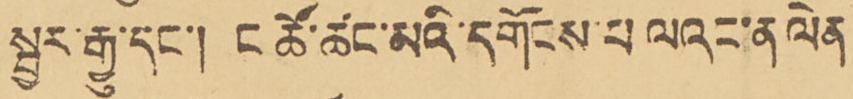སྦྱར་རྒྱུ་དང་། ང ཚོ་ཚང་མའི་དགོངས་པ ལའང་ན ལེན
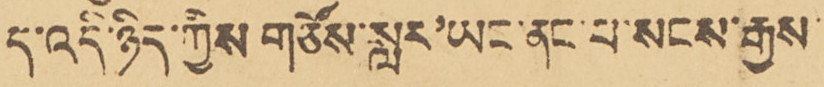ད་འདི་ཉིད་ཀྱིས གཙོས་སླར་ཡང་ནང་པ་སངས་རྒྱས
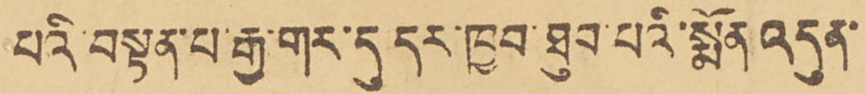པའི་བསྟན་པ་རྒྱ་གར་དུ དར་ཁྱབ་ཐུབ་པའི་སྨོན འདུན་
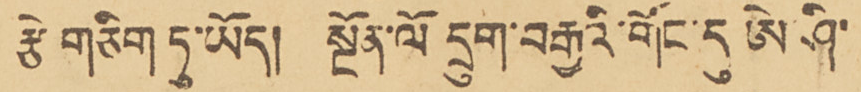རྩེ གཅིག ཏུ་ཡོད། སྔོན་ལོ དྲུག་བརྒྱའི་གོང་དུ ཨེ་ཤི་
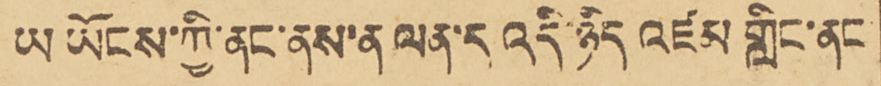ཡ ཡོངས་ཀྱི་ནང་ནས་ན ལན་དུའདི་ཉིད འཛམ གླིང་ནང
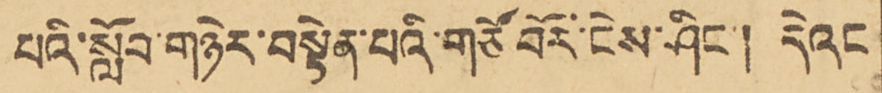པའི་སློབ་གཉེར་བསྟེན་པའི་གཙོ བོར་ངེས་ཤིང་། དེའང
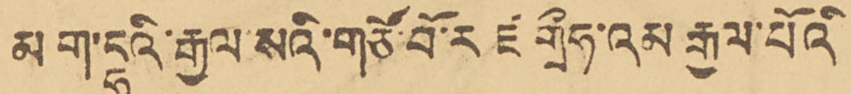མག་དྷའི་རྒྱལ་སའི་གཙོ་བོ་ར ཛ གྲིཧ་འམ རྒྱལ་པོའི
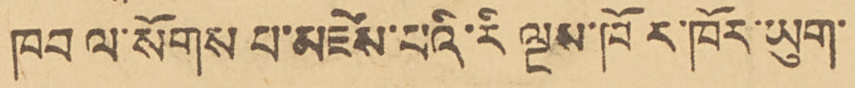ཁབ ལ་སོགས པ་མཛེས་པའི་རི ལྔས་ཁོར་ཁོར་ཡུག་
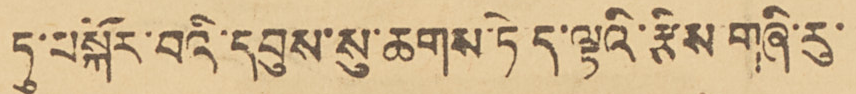ཏུ་བསྐོར་བའི་དབུས་སུ་ཆགས་ཏེ ད་ལྟའི་རྩིས་གཞི་རུ་
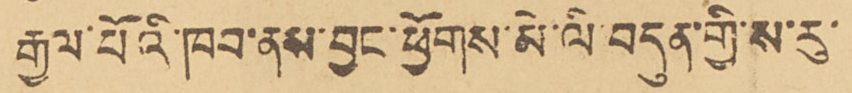རྒྱལ་པོའི་ཁབ་ནས་བྱང་ཕྱོགས་མེ་ལི་བདུན་གྱི་ས་རུ་
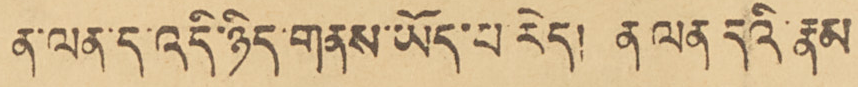ན་ལན་ད་འདི་ཉིད་གནས་ཡོད་པ རེད། ན ལན དའི་རྣམ
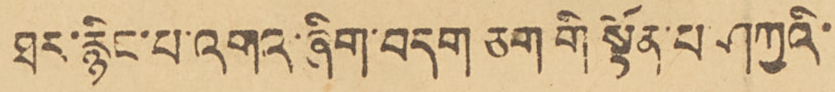ཐར་རྙིང་པ་འགའ་ཞིག་བདག ཅག གི སྟོན་པ་ཤཀྱའི་
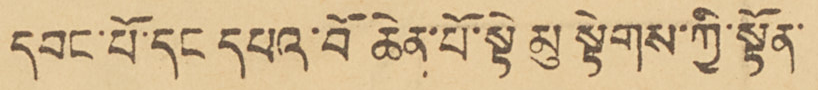དབང་པོ་དང དཔའ་བོ ཆེན་པོ་སྟེ་མུ སྟེགས་ཀྱི་སྟོན་
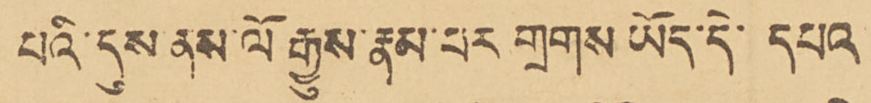པའི་དུས ནས་ལོ རྒྱུས་རྣམ་པར གྲགས ཡོད་དེ་དཔའ
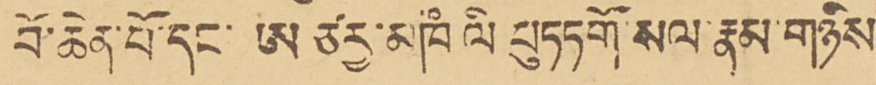བོ་ཆེན་པོ་དང་ ཨ ཙྱ་མཁཾ ལི པུཏཏགོ་སལ་རྣམ་གཉིས
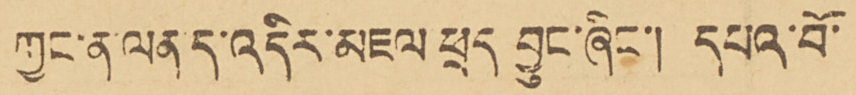ཀྱང་ན་ལན ད་འདིར་མཇལ ཕྲད བྱུང་ཞིང་། དཔའ་བོ་
